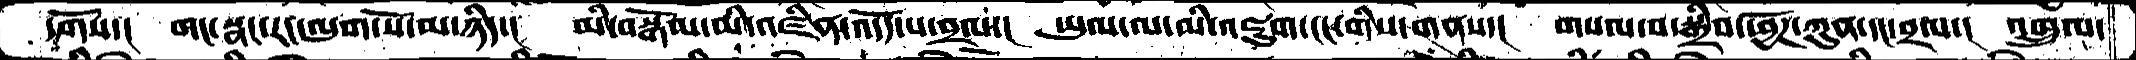དགོས་།   གང་སྣང་རང་ལུག་སོ་མ་ཉིད་།  མི་བསྒོམ་མི་འཛིན་འདོད་པ་བྲལ་།  ཡུལ་ལ་མི་འཇུག་ངང་གིས་གནས་།  གསལ་བ་སྒྲིབ་ཕྱོཌ་ཀུན་དང་བྲལ་།  འཁྲུལ་
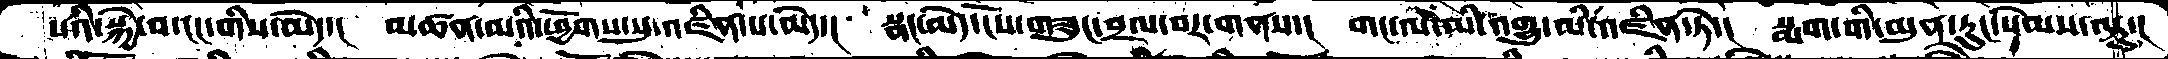པའི་སྐྱེ་བ་ངང་གིས་མེད་།  མཚན་མའི་ཕྱོགས་སུ་འཛིན་པ་མེད་།  སྣང་མེད་ངོས་གཟུང་བྲལ་བར་གནས་།  གང་ལ་མི་འགྱུ་མི་འཛིན་ཏེ་།  སྨག་གི་མུན་རུང་སེམས་ལྟུ་།
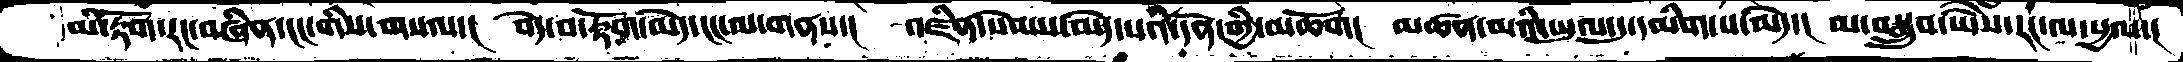མི་རྟོག་རང་བཞིན་ངང་གིས་གསལ་།  བདེ་བ་རྟོག་མེད་ངང་ལ་གནས་། འཛིན་སེམས་མེད་པའི་དོན་གྱི་མཆོག་། མཚན་མའི་ཡུལ་དུ་དམིག་པ་མེད་། མ་བསྒྲུབ་ཡཻས་རང་ལ་སྱལ་།
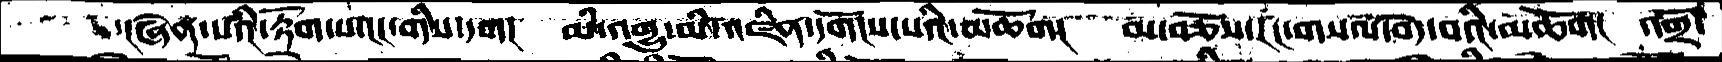་།ཞེན་པའི་རྟོག་པ་ངང་གིས་དག། མི་འགྱུ་མི་འཛིན་དགོངས་པའི་མཆོག། མ་བཅོས་རང་གསལ་བདེ་་བའི་མཆོག། འགྲོ་
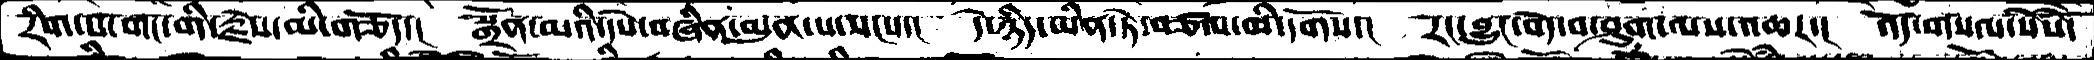རིག་པ་གང་གི་རྗེས་མི་གཅོད་།  སྒྲོན་མའི་དཔེ་བཞིན་མུན་པ་སངས་།  དེ་ཉིད་ཡིན་ཏེ་བཙལ་མི་དགོས་།  རང་བྱུང་བདེ་བ་ཤུག་ལས་འཆར་།  འོད་གསལ་སེཾས་
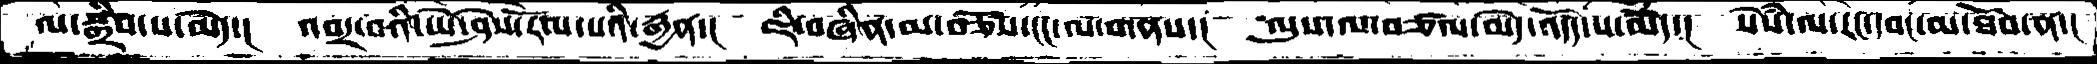ལ་སྒྲིབ་པ་མེད་།  འབར་བའི་ཡེ་ཤེས་རོལ་པའི་རྒྱན་།  ཇི་བཞིན་མ་བཅོས་ངང་ལ་གནས་།  ལུས་ལ་བཙལ་མེད་འདོད་པ་མེད་།  སེཾས་ལ་རང་དབང་མ་ཐོབ་ན་།
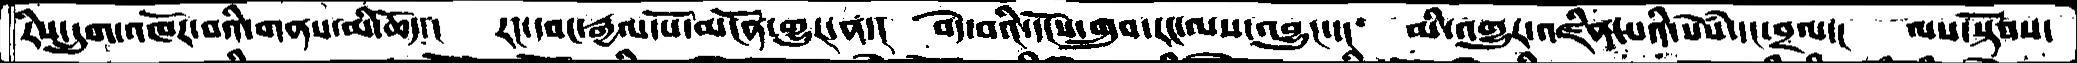རིས་དྲུག་འཁོར་བའི་གནས་མི་ཆོད་།  རང་དབང་རྒྱལ་པོ་མངོན་གྱུར་ན་།  བདེ་བའི་དངོས་གྲུབ་རང་ལས་འབྱུང་་། མི་འགྱུར་འཛིན་པའི་སེཾས་དང་བྲལ་།  ལས་སྟོབས་
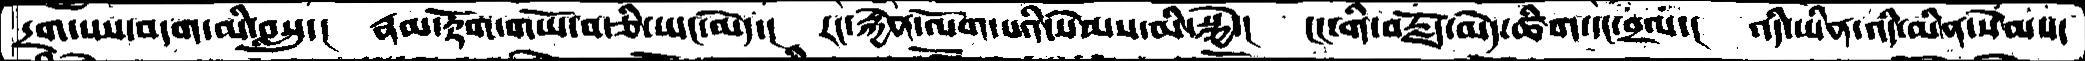དྲག་པས་བདག་མི་བསླུ་།  རྣམ་རྟོག་གཡོ་བ་ཅི་ཡང་མེད་།  རང་རྐྱེན་ལོག་པའི་སེམས་མི་སྐྱེ་།  ངང་གི་བརྗོད་མེད་ཚིག་དང་བྲལ་།  འདི་ཡིན་འདི་མིན་སེམས་
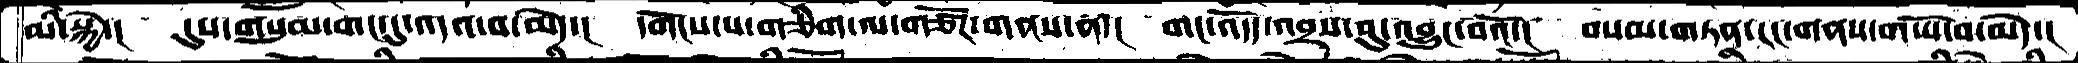མི་སྐྱེ་།  དུས་གསུམ་གང་དུ་འདའ་བ་མེད་།  དགོངས་པ་གཅིག་ལ་གཙོར་གནས་ན་།  གང་འདོད་འབྲས་བུ་འབྱུང་བའོ་།  བསམ་གཏན་ངང་གནས་གཡོ་བ་མེད་།
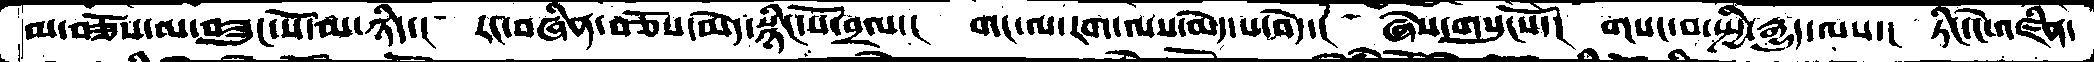མ་བཅོས་མ་བཟུང་སོ་མ་ཉིད་།  རང་བཞིན་བཅོས་མེད་སྙིང་པོ་བྲལ་།  གང་ལ་རག་ལས་མེད་པ་བདེ་།  ཞེས་གསུངསོ་།  གསང་བ་སྤྱི་རྒྱུད་ལས་།  ཏིང་ངེ་འཛིན་
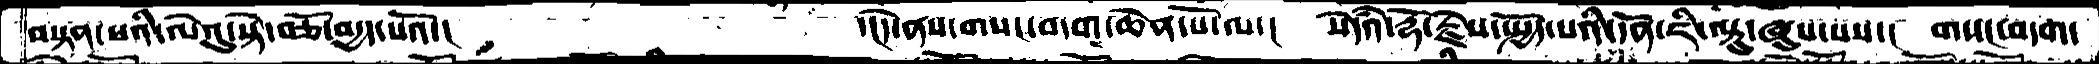བསྟན་པའི་ལེའུ་སྟེ་བཅོ་བདྱད་པའོ་།       ་།དེ་ནས་གསང་བདག་ཆེན་པོ་ལ་།   སེདཾའ་རྡོ་རྗེས་སྤྱོད་པའི་ཇི་ལྟུ་ཞུས་པས་།  གསང་བདག་
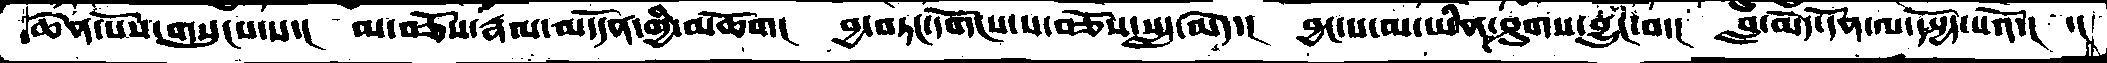ཆེན་པོས་གསུངས་པ་།   མ་བཅོས་རྣལ་མ་དོན་གྱི་མཆོག།  བྱ་བཏང་དགོངས་པ་བཅོས་སླད་མེད་།  བྱང་པ་མ་ཡིན་ཤུགས་བྱུང་བ་།  བླ་མེད་དོན་ལ་སྤྱོད་པའོ་།  ་།
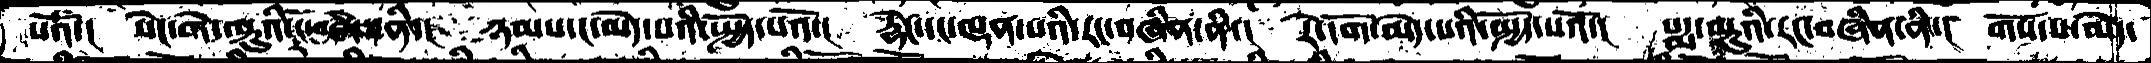པའོ་། སེང་གེ་ལྟུའི་རང་བཞིན་ནི་། ཉམས་ང་མེད་པའི་སྤྱོད་པའོ་། རྡེང་དང་ལྡན་པའི་རང་བཞིན་ནི་། རེ་དོག་མེད་པའི་སྤྱོད་པའོ་། པདྨ་ལྟུའི་རང་བཞིན་ནི་། གོས་པ་མེད་
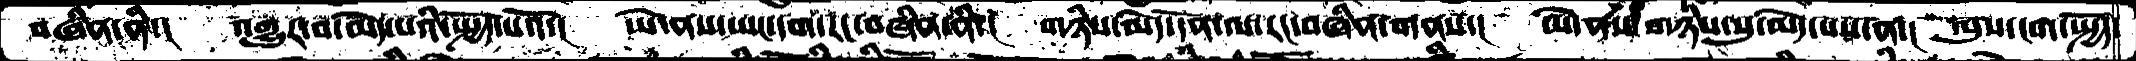བཞིན་ནི་།   འགྱུར་བ་མེད་པའི་སྤྱོད་པའོ་།   ཡེ་ནས་ཡང་དག་རང་བཞིན་ནི་།  གཉིས་མེད་དོན་ལ་རང་བཞིན་གནས་།  ཡེ་ནས་གཉིས་སུ་མེད་པས་ན་།  ལུས་ངག་སྤྱོད་
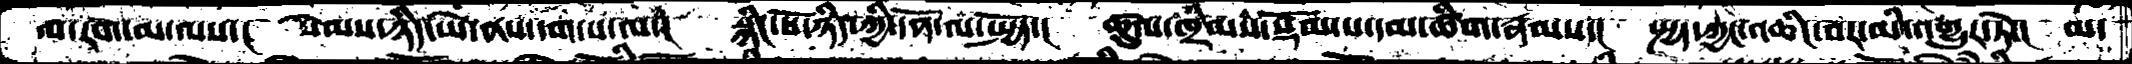ལ་རག་མ་ལས་།  སེམས་ཉིད་ཡེ་ནས་དག་པ་ལ་།  སྙིང་པོ་ཉིད་ཀྱི་དོན་ལ་སྤྱོད་།  ཚུལ་ཁྲིམས་སྡོམ་པ་དམ་ཚིག་རྣམས་།  སྤྱད་ཀྱང་འཆིང་བར་མི་འགྱུར་ཏེ་།  མ་
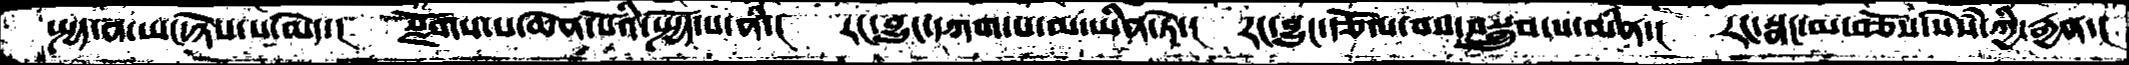སྤྱད་ན་ཡང་ཉོས་པ་མེད་།  སྫོགས་པ་ཆེན་པོའི་སྤྱོད་པ་ནི་།  རང་བྱུང་དཀག་པ་མ་ཡིན་ཏེ་།  རང་བྱུང་རྩོལ་བས་བསྒྲུབ་པ་མིན་།  རང་སྣང་མ་བཅོས་སེཾས་ཀྱི་རྒྱན་།
